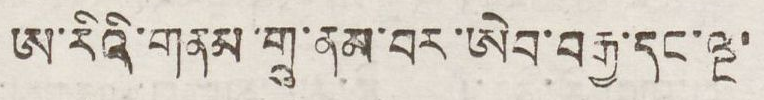ཨ་རིའི་གནམ་གྲུ་ནམ་བར་ཨེབ་བརྒྱ་དང་ལྔ་
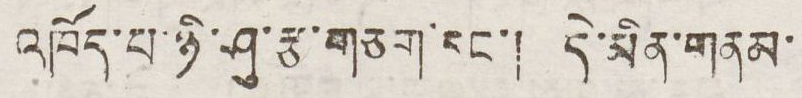འཁོད་པ་ཉི་ཤུ་རྩ་གཅག་དང་། དེ་མིན་གནམ་
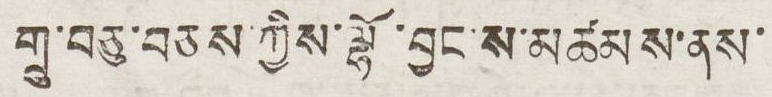གྲྭ་བཅུ་བཅས་ཀྱིས་ལྷོ་བྱང་ས་མཚམས་ནས་
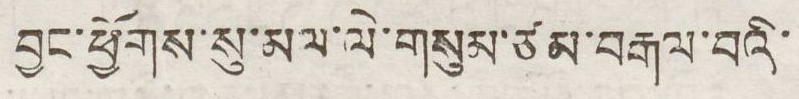བྱང་ཕྱོགས་སུ་མལ་ལེ་གསུམ་ཙམ་བརྒལ་བའི་
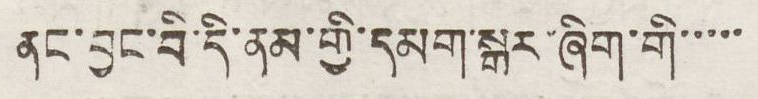ནང་བྱུང་བི་དི་ནམ་གྱི་དམག་སྒར་ཞིག་གི་་་་་
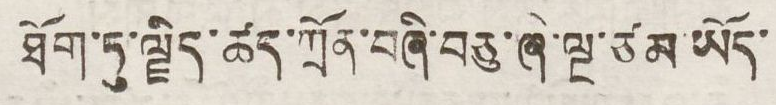ཐོག་ཏུ་ལྗིད་ཚད་ཀྲོན་བཞི་བཅུ་ཞེ་ལྔ་ཙམ་ཡོད་
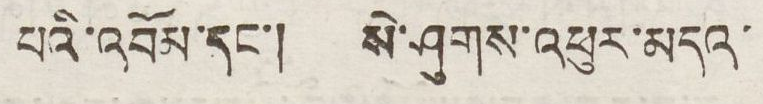པའི་འབོམ་དང་། སེ་ཤུགས་འཕུར་མདའ་
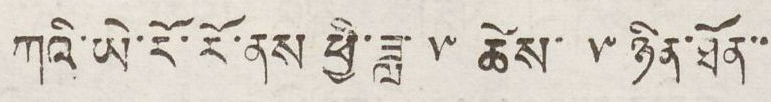ཀའི་ཡེ་རོ་རོ་ནས ཕྱི་ཟླ་ ༥ ཚེས་ ༥ ཉིན་ཐོན་་
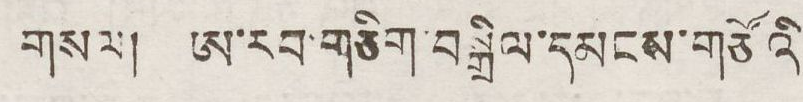གསལ། ཨ་རབ་གཅིག་བསྒྲིལ་དམངས་གཙོའི་
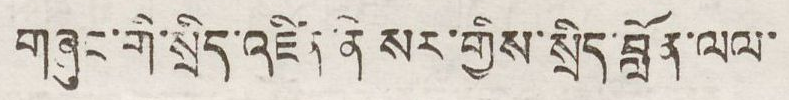གཞུང་གི་སྲིད་འཛིན་ནེསར་གྱིས་སྲིད་བློན་ལལ་
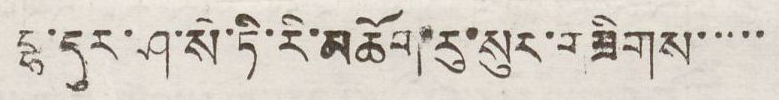ལྷ་དུར་ཤ་སེ་ཏི་རི་མཆོག་རུ་སུར་གཟིགས་་་་་་
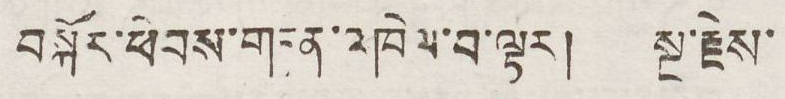བསྐོར་ཕེབས་གཏན་འཁེལ་བ་ལྟར། སྔ་རྗེས་
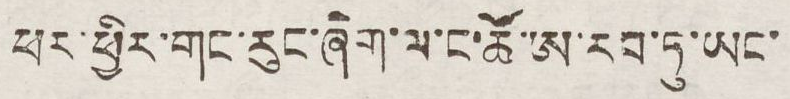ཕར་ཕྱིར་གང་རུང་ཞིག་ལ་ང་ཚོ་ཨ་རབ་ཏུ་ཡང་
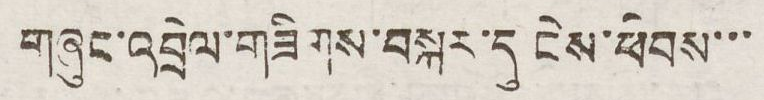གཞུང་འབྲེལ་གཟིགས་བསྐུར་དུ་ངེས་ཕེབས་་་
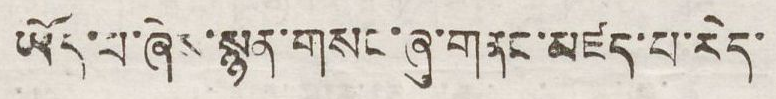ཡོད་པ་ཞེས་སྙན་གསང་ཞུ་གནང་མཛད་པ་རེད་
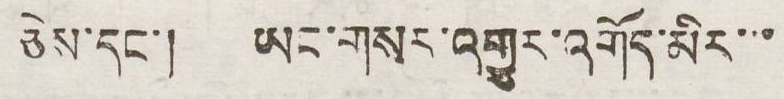ཅེས་དང་། ཡང་གསར་འགྱུར་འགོད་མིར་་་
